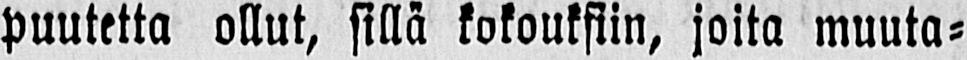puutetta ollut, sillä kokouksiin, joita muuta-
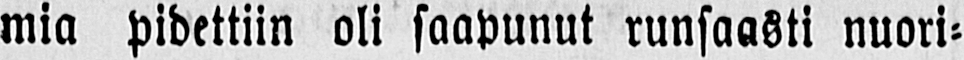mia pidettiin oli saapunut runsaasti nuori-
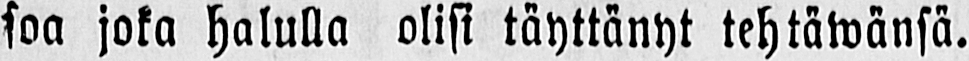soa joka halulla olisi täyttänyt tehtäwänsä.
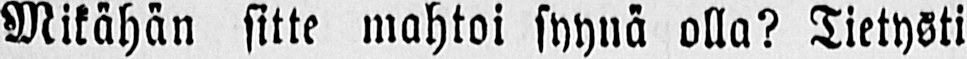Mikähän sitte mahtoi syynä olla? Tietysti
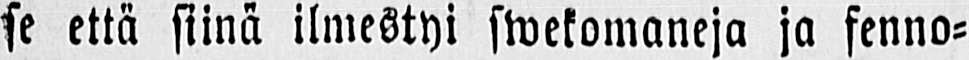se että siinä ilmestyi swekomaneja ja fenno-
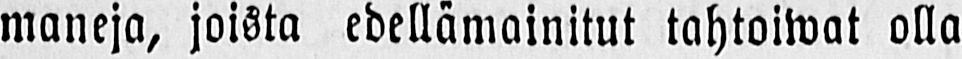maneja, joista edellämainitut tahtoiwat olla
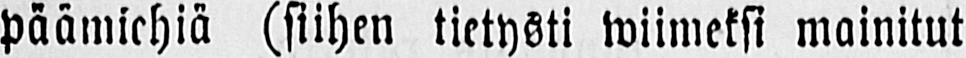päämiehiä (siihen tietysti wiimeksi mainitut
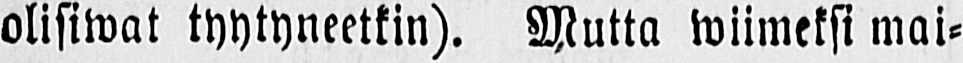olisiwat tyytyneetkin). Mutta wiimeksi mai-
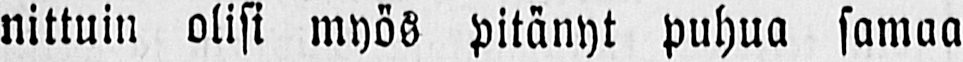nittuin olisi myös pitänyt puhua samaa
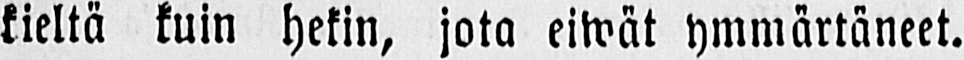kieltä kuin hekin, jota eiwät ymmärtäneet.
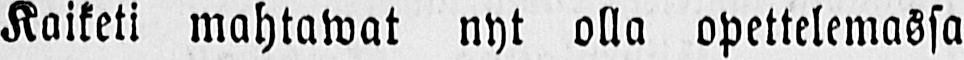Kaiketi mahtawat nyt olla opettelemassa
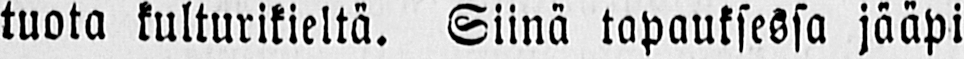tuota kulturikieltä. Siinä tapauksessa jääpi
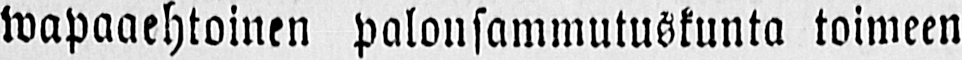wapaaehtoinen palonsammutuskunta toimeen
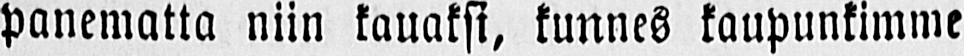panematta niin kauaksi, kunnes kaupunkimme
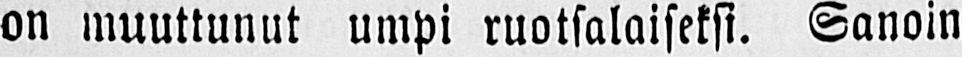on muuttunut umpi ruotsalaiseksi. Sanoin
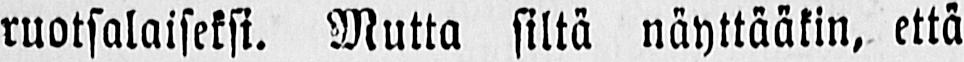ruotsalaiseksi. Mutta siltä näyttääkin, että
